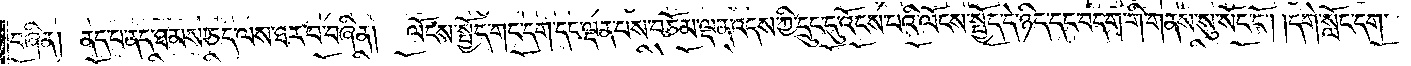བཞིན། ནད་པ་ནད་ཐམས་ཅད་ལས་ཐར་བ་བཞིན། ལོངས་སྤྱོད་གང་དག་དང་ལྡན་པས་བཅོམ་ལྡན་འདས་ཀྱི་དྲུང་དུ་འོངས་པའི་ལོངས་སྤྱོད་དེ་ཉིད་དང་བདག་གི་གནས་སུ་སོང་ངོ༌། །དགེ་སློང་དག་
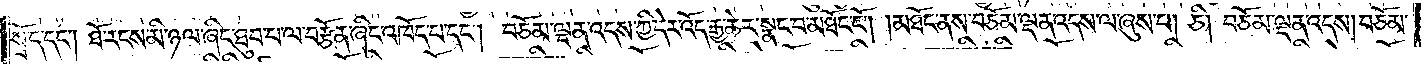སྲོད་དང༌། ཐོ་རངས་མི་ཉལ་ཞིང་ཐུབ་པ་ལ་བརྩོན་ཞིང་འཁོད་པ་དང༌། བཅོམ་ལྡན་འདས་ཀྱིས་དེར་འོད་རྒྱ་ཆེར་སྣང་བ་མཐོང་ངོ་།མཐོང་ནས་བཅོམ་ལྡན་འདས་ལ་ཞུས་པ། ཅི། བཅོམ་ལྡན་འདས། བཅོམ་
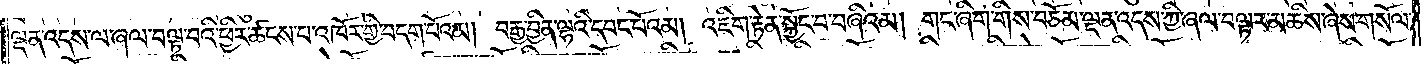ལྡན་འདས་ལ་ཞལ་བལྟ་བའི་ཕྱིར་ཚངས་པ་འཁོར་གྱི་བདག་པོའམ། བརྒྱ་བྱིན་ལྷའི་དབང་པོའམ། འཇིག་རྟེན་སྐྱོང་བ་བཞིའམ། གང་ཞིག་གིས་བཅོམ་ལྡན་འདས་ཀྱི་ཞལ་བལྟར་མཆིས་ཞེས་གསོལ་
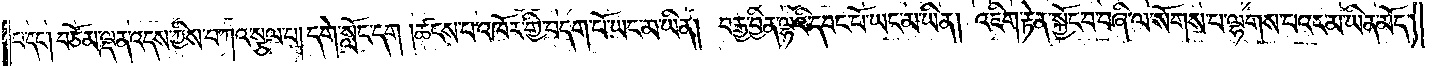བ་དང༌། བཅོམ་ལྡན་འདས་ཀྱིས་བཀའ་སྩལ་པ། དགེ་སློང་དག །ཚངས་པ་འཁོར་གྱི་བདག་པོ་ཡང་མ་ཡིན། བརྒྱ་བྱིན་ལྷའི་དབང་པོ་ཡང་མ་ཡིན། འཇིག་རྟེན་སྐྱོང་བ་བཞི་ལ་སོགས་པ་ལྷགས་པའང་མ་ཡིན་མོད་
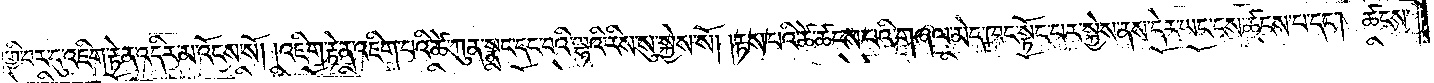གྱི་བར་དུ་འཇིག་རྟེན་འདིར་མ་འོངས་སོ། །འཇིག་རྟེན་འཇིག་པའི་ཚེ་ཀུན་སྣང་དང་བའི་ལྷའི་རིས་སུ་སྐྱེས་སོ། །རྟས་པའི་ཚེ་ཚངས་པའི་གཞལ་མེད་ཁང་སྟོང་པར་སྐྱེས་ནས་དེར་ཡང་ངས་ཚངས་པ་དང༌། ཚངས་
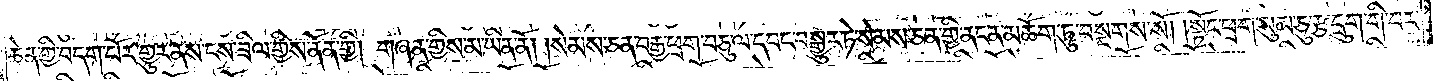ཆེན་གྱི་བདག་པོར་གྱུར་ནས་ངས་ཟིལ་གྱིས་ནོན་གྱི། གཞན་གྱིས་མ་ཡིན་ནོ། །སེམས་ཅན་བརྒྱ་ཕྲག་བཅུ་ལ་དབང་བསྒྱུར་ཏེ་སེམས་ཅན་གྱི་ནང་ན་མཆོག་ཏུ་བསྔགས་སོ། །སྟོང་ཕྲག་གསུམ་ཅུ་རྩ་དྲུག་གི་བར་
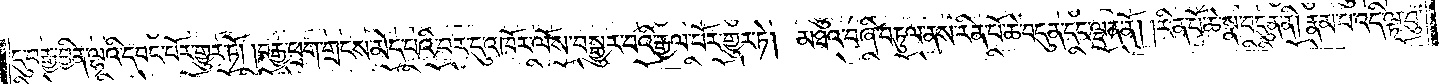དུ་བརྒྱ་བྱིན་ལྷའི་དབང་པོར་གྱུར་ཏོ། །བརྒྱ་ཕྲག་གྲངས་མེད་པའི་བར་དུ་འཁོར་ལོས་བསྒྱུར་བའི་རྒྱལ་པོར་གྱུར་ཏེ། མཐའ་བཞི་བཏུལ་ནས་རིན་པོ་ཆེ་བདུན་དང་ལྡན་ནོ། །རིན་པོ་ཆེ་སྣ་བདུན་ནི། རྣམ་པ་འདི་ལྟ་བུ་
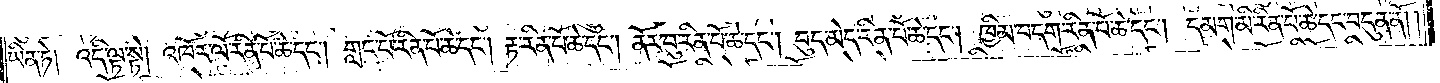ཡིན་ཏེ། འདི་ལྟ་སྟེ། འཁོར་ལོ་རིན་པོ་ཆེ་དང༌། གླང་པོ་རིན་པོ་ཆེ་དང༌། རྟ་རིན་པོ་ཆེ་དང༌། ནོར་བུ་རིན་པོ་ཆེ་དང༌། བུད་མེད་རིན་པོ་ཆེ་དང༌། ཁྱིམ་བདག་རིན་པོ་ཆེ་དང༌། དམག་མི་རིན་པོ་ཆེ་དང་བདུན་ནོ། །
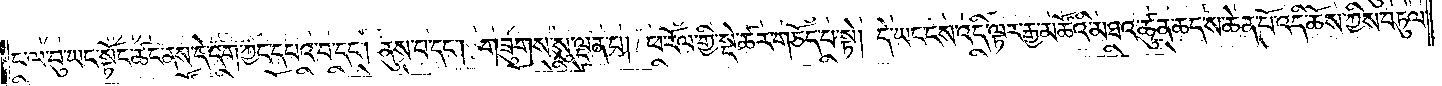ང་ལ་བུ་ཡང་སྟོང་ཚང་ནས་དེ་དག་ཀྱང་དཔའ་བ་དང༌། ནུས་པ་དང༌། གཟུགས་སུ་ལྡན་པ། ཕ་རོལ་གྱི་སྡེ་ཚར་གཅོད་པ་སྟེ། དེ་ཡང་ངས་འདི་ལྟར་རྒྱ་མཚོའི་མཐའ་ཚུན་ཆད་ས་ཆེན་པོ་འདི་ཆོས་ཀྱིས་བཏུལ་
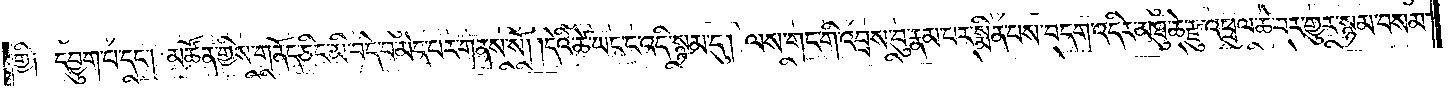གྱི༑ དབྱུག་པ་དང༌། མཚོན་གྱིས་གནོད་ཅིང་མི་བདེ་བ་མེད་པར་གནས་སོ། །དེའི་ཚེ་ཡང་ང་འདི་སྙམ་དུ། ལས་གང་གི་འབྲས་བུ་རྣམ་པར་སྨིན་པས་བདག་འདིར་མཐུ་ཆེ་རྫུ་འཕྲུལ་ཆེ་བར་གྱུར་སྙམ་བསམ་
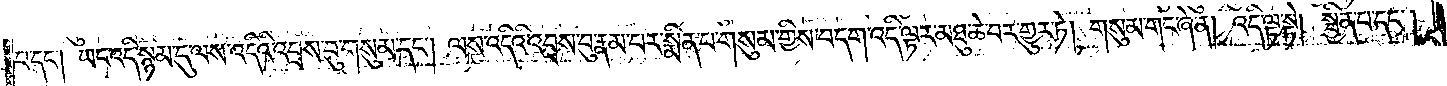པ་དང༌། ཡང་འདི་སྙམ་དུ་ལས་འདིའི་འབྲས་བུ་གསུམ་དང༌། ལས་འདིའི་འབྲས་བུ་རྣམ་པར་སྨིན་པ་གསུམ་གྱིས་བདག་འདི་ལྟར་མཐུ་ཆེ་བར་གྱུར་ཏེ། གསུམ་གང་ཞེ་ན། འདི་ལྟ་སྟེ། སྦྱིན་པ་དང་
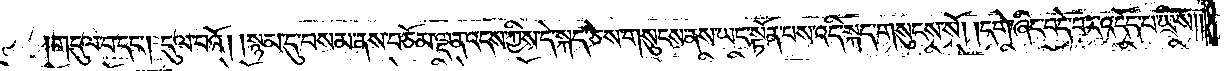གདུལ་བ་དང༌། དུལ་བའོ། །སྙམ་དུ་བསམས་ནས། བཅོམ་ལྡན་འདས་ཀྱིས་དེ་སྐད་གསུངས་ནས་ཡང་སྟོན་པས་འདི་སྐད་གསུངས་སོ། །དགེ་ཞིང་བདེ་བར་འདོད་པ་ཡིས༎
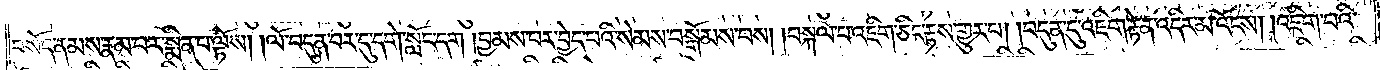བསོད་ནམས་རྣམ་པར་སྨིན་ལ་ལྟོས༑ ༑ལོ་བདུན་པར་དུ་དགེ་སློང་དག །བྱམས་པར་བྱེད་པའི་སེམས་བསྒོམས་པས། །བསྐལ་པ་འཇིག་ཅིང་རྟས་འགྱུར་བ། །བདུན་དུ་འཇིག་རྟེན་འདིར་མ་འོངས། །འཇིག་པའི་
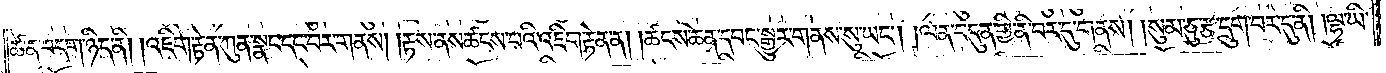ཚེ་ན་བདག་ཉིད་ནི། །འཇིག་རྟེན་ཀུན་སྣང་དང་པར་གནས། །རྟས་ནས་ཚངས་པའི་འཇིག་རྟེན་ན། །ཚངས་ཆེན་དབང་བསྒྱུར་གནས་སུ་ཡང་༑ །ལན་བདུན་གྱི་ནི་བར་དུ་གནས། །སུམ་བཅུ་རྩ་དྲུག་པར་དུ་ནི། །ལྷ་ཡི་
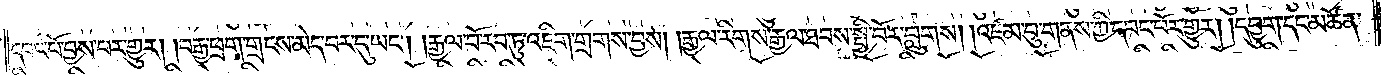དབང་པོ་བྱས་པར་གྱུར། །བརྒྱ་ཕྲག་གྲངས་མེད་པར་དུ་ཡང༌། །རྒྱལ་པོ་རབ་ཏུ་འཇིག་གྲགས་བྱས། །རྒྱལ་རིགས་རྒྱལ་ཐབས་སྤྱི་བོར་བླུགས། །འཛམ་བུ་གནས་ཀྱི་དབང་པོར་གྱུར། །དབྱུག་དང་མཚོན་
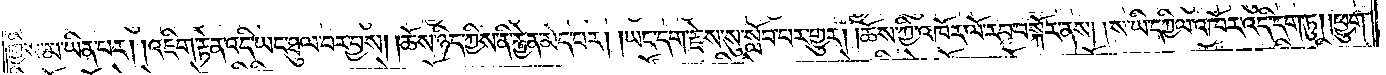གྱིས་མ་ཡིན་པར། །འཇིག་རྟེན་འདི་ཡང་ཐུལ་བར་བྱས། །ཆོས་ཉིད་ཀྱིས་ནི་རྐྱེན་མེད་པར། །ཡང་དག་རྗེས་སུ་སློབ་པར་གྱུར། །ཆོས་ཀྱི་འཁོར་ལོ་རབ་བསྐོར་ནས། །ས་ཡི་དཀྱིལ་འཁོར་འདི་དག་ཏུ། །ཕྱུག་
